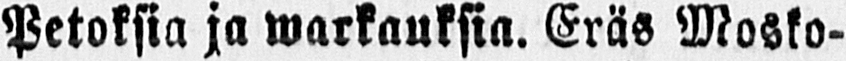Petoksia ja warkauksia. Eräs Mosko-
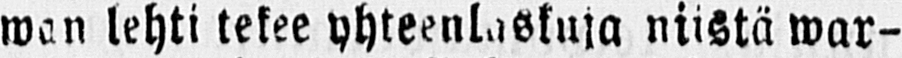wan lehti tekee yhteenlaskuja niistä war-
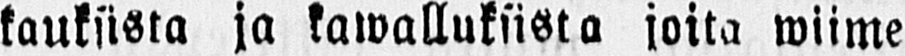kauksista ja kawalluksista joita wiime
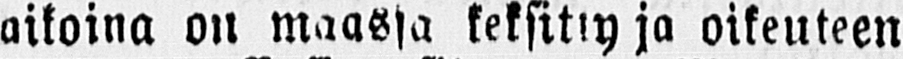aikoina on maassa keksitty ja oikeuteen
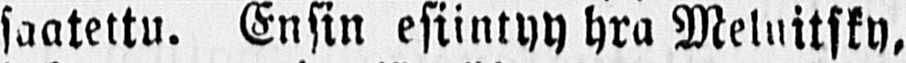saatettu. Ensin esiintyy hra Meluitsky,
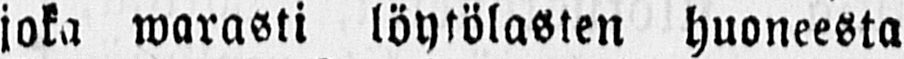joka warasti löytölasten huoneesta
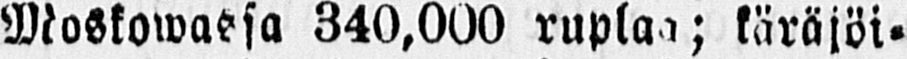Moskowassa 340,000 ruplaa; käräjöi-
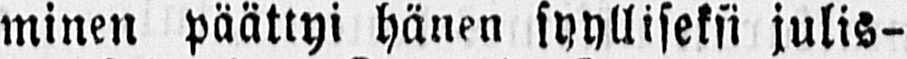minen päättyi hänen syylliseksi julis-
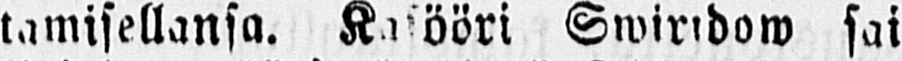tamisellansa. Kasööri Swiridow sai
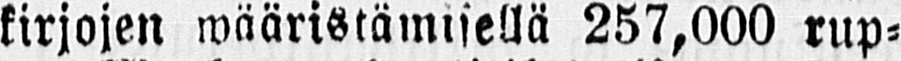kirjojen wääristämisellä 257,000 rup-
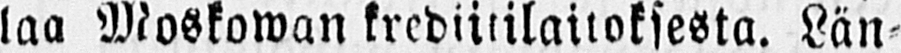laa Moskowan krediitilaitoksesta. Län-
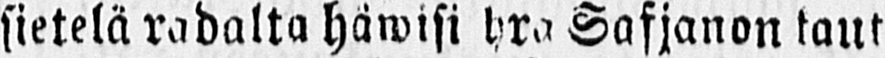sietelä radalta häwisi hra Safjanon kaut-
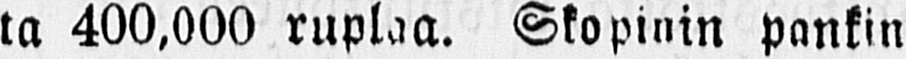ta 400,000 ruplaa. Skopinin pankin
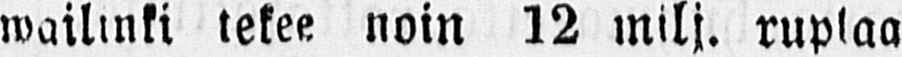wailinki tekee noin 12 milj. ruplaa
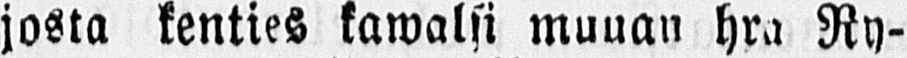josta kenties kawalsi muuan hra Ry-
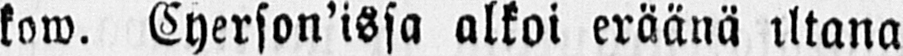kow. Cyerson'issa alkoi eräänä iltana
